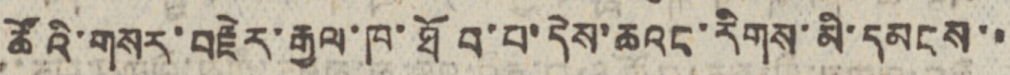ཚོའི་གསར་བརྗེར་རྒྱལ་ཁ་ཐོབ་པ་དེས་ཆའང་རིགས་མི་དམངས་་
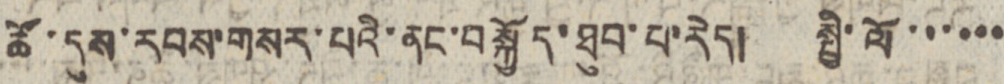ཚོ་དུས་རབས་གསར་པའི་ནང་བསྐྱོད་ཐུབ་པ་རེད། སྤྱི་ལོ་་་་་་
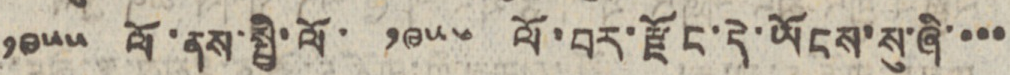༡༩༥༥ ལོ་ནས་སྤྱི་ལོ་ ༡༩༥༦ ལོ་བར་རྫོང་དེ་ཡོངས་སུ་ཞི་་་་
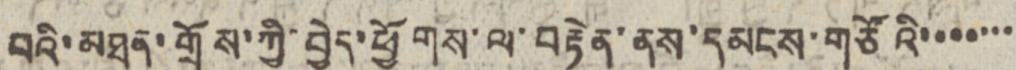པའི་མཐུན་གྲོས་ཀྱི་བྱེད་ཕྱོགས་ལ་བརྟེན་ནས་དམངས་གཙོའི་་་་་་་
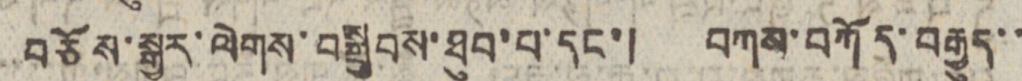བཅོས་སྒྱུར་ལེགས་བསྒྲུབས་ཐུབ་པ་དང་། བཀས་བཀོད་བརྒྱུད་་
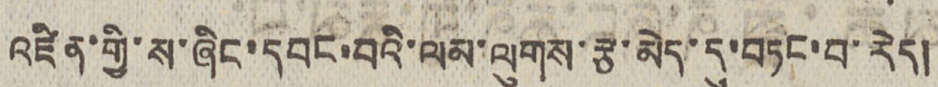འཛིན་གྱི་ས་ཞིང་དབང་བའི་ལམ་ལུགས་རྩ་མེད་དུ་བཏང་བ་རེད།
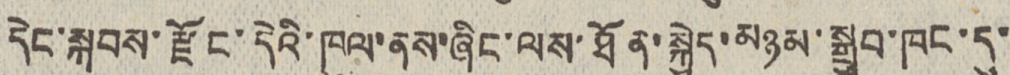དེང་སྐབས་རྫོང་དེའི་ཁུལ་ནས་ཞིང་ལས་ཐོན་སྐྱེད་མཉམ་སྒྲུབ་ཁང་དུ་
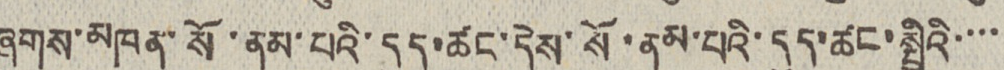ཞུགས་མཁན་སོ་ནམ་པའི་དུད་ཚང་དེས་སོ་ནམ་པའི་དུད་ཚང་སྤྱིའི་་་་
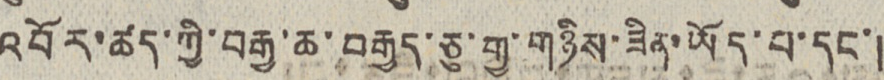འབོར་ཚད་ཀྱི་བརྒྱ་ཆ་བརྒྱད་ཅུ་གྱ་གཉིས་ཟིན་ཡོད་པ་དང་།
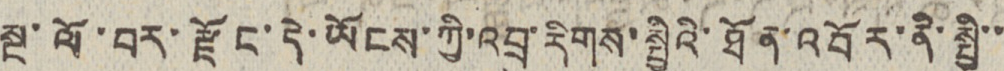སྔ་ལོ་བར་རྫོང་དེ་ཡོངས་ཀྱི་འབྲུ་རིགས་སྤྱིའི་ཐོན་འབོར་ནི་སྤྱི་་
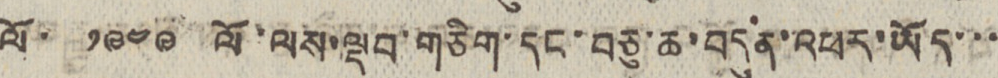ལོ་ ༡༩༤༩ ལོ་ལས་ལྡབ་གཅིག་དང་བཅུ་ཆ་བདུན་འཕར་ཡོད་་་
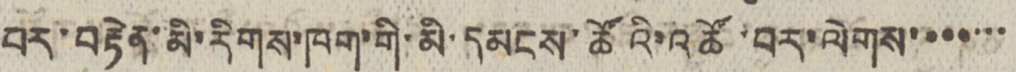པར་བརྟེན་མི་རིགས་ཁག་གི་མི་དམང་ཚོའི་འཚོ་བར་ལེགས་་་་་་་
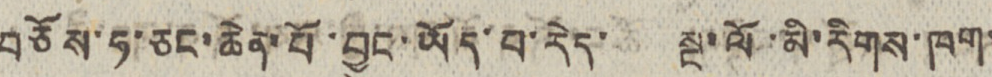བཅོས་ཧ་ཅང་ཆེན་པོ་བྱུང་ཡོད་པ་རེད་ སྔ་ལོ་མི་རིགས་ཁག་
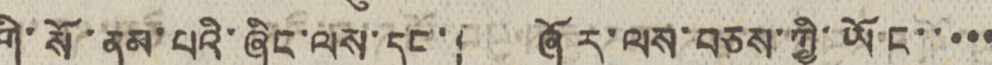གི་སོ་ནམ་པའི་ཞིང་ལས་དང་། ཞོར་ལས་བཅས་ཀྱི་ཡོང་་་་་
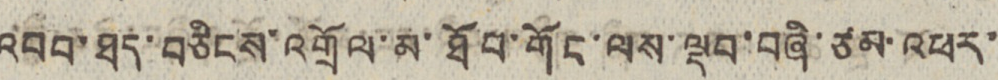འབབ་ཐད་བཅིངས་འགྲོལ་མ་ཐོབ་གོང་ལས་ལྡབ་བཞི་ཙམ་འཕར་
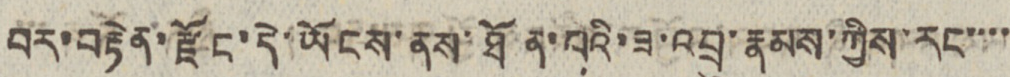བར་བརྟེན་རྫོང་དེ་ཡོངས་ནས་ཐོན་པའི་ཟ་འབྲུ་རྣམས་ཀྱིས་རང་་་་
